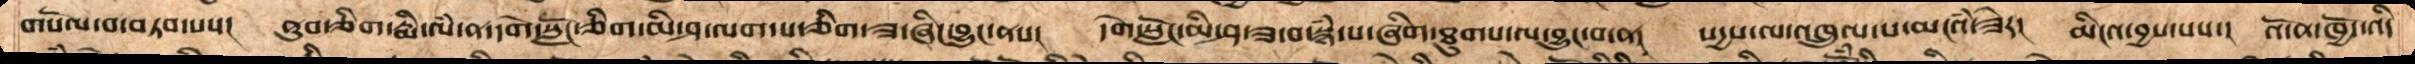གསོལ་བ་བཏབ་པས།   ནུབ་གཅིག་རྨི་ལཾ་ན་དགེ་སློང་ཅིག་མི་ཤ་ལག་པ་གཅིག་ཟ་ཞིང་བྱུང་ནས།  དགེ་སློང་མི་ཤ་ཟ་བ་སྙཾ་པ་ཞིག་ཐུགས་ལ་བྱུང་བ་ན།   སདྱས་ལ་འཁྲུལ་པ་མངའཾ་ཟེར།   མིངའ་བྱས་པས།  འོ་ན་ཁྱོད་འདི
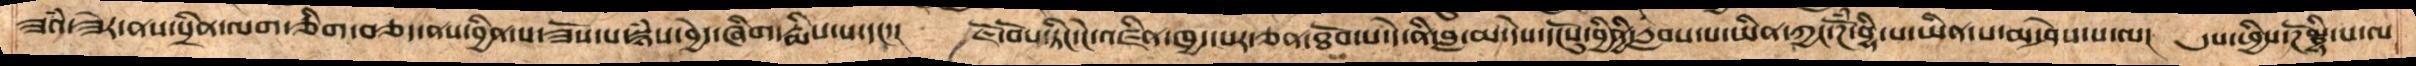ཟའཾ་ཟེར་ནས་སྲིན་ལག་ཅིག་བཅད་ནས་བྱིན་པ་ཟོས་པ་སྙཾས་བྱེད་ཞིག་རྨིས་པ་དང་།   ཇོ་བོས་ཏིང་ངེ་འཛིན་ཁྱད་པར་ཅན་ཐོབ་པ་དེ་ནི་བླ་མ་དེས་དངོསུ་བྱིནྱིརླབས་པ་ཡིན་ཀྱང་ཌོཾ་བྷི་པ་ཡིན་པ་མ་ཤེས་པ་ལ།   དུས་ཕྱིས་ཌོཾ་བྷི་པ་ལ
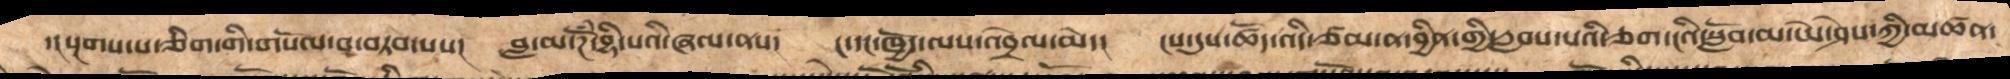དངསྔགས་པ་ཅིག་གི་གསོལ་བ་བཏབ་པས།   བླ་མ་ཌོཾ་བྷི་པའི་ཞལ་ནས།   ང་དང་ཁྱོད་ལས་འབྲེལ་མེད།   ངས་དུས་ཚོད་འདི་ཙམ་ན་བྱིན་གྱི་རླབས་པའི་ཅག་ངའི་སློབ་མ་ཡེ་ཤེས་ཀྱི་མཚན་
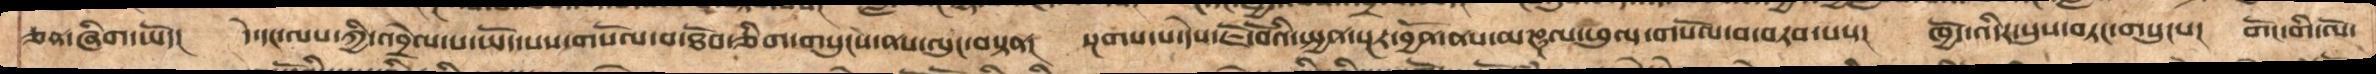ཅན་ཞིག་ཡོད།  དེ་དང་ལས་ཀྱི་འབྲེལ་པ་ཡོད་པས་གསོལ་བ་ཐོབ་ཅིག་གསུངས་ནས་ལུང་བསྟན།  སྔགས་པ་དེས་ཇོ་བོའི་སྤྱན་སྔར་བྱོན་ནས་མཎྜལ་ཕུལ་གསོལ་བ་བཏབ་པས།  ཁྱོད་འདིར་སུས་བཏང་གསུངས།  གོང་གི་ལོ་
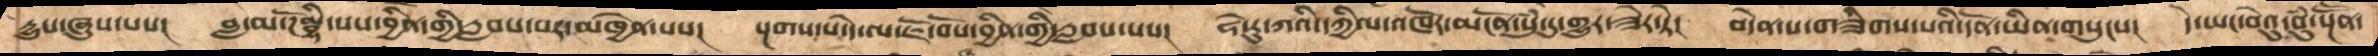དྱུས་ཞུས་པས།    བླ་མ་ཌོམྦྷི་པས་བྱིན་གྱི་རླབས་པར་མཁྱེན་པས།   སྔགས་པ་དེ་ལ་ཇོ་བོས་བྱིན་གྱི་རླབས་པས།   ཧེ་རུ་ཀའི་དཀྱིལ་འཁོར་མངོན་སུཾ་དུ་གྱུར་ཟེར་ཏེ། བདེན་པ་གཟིགས་པའི་དོན་ཡིན་གསུངས།   དེ་ཡང་བེའུ་བུཾ་སྔོཽན་
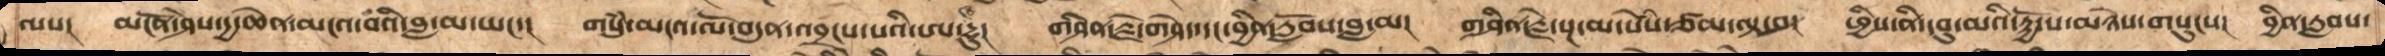ལས། མངོན་ཤེས་རྒྱ་ཆེན་མངའ་བའི་བླ་མ་ཡང་།  གསུཾ་མངའ་ལོ་བདུན་འབྲངས་པའི་ཨ་ཝ་དྷུ།  གཤིན་རྗེ་གཤེད་དང་བྱིན་རློབས་བླ་མ། གཤིན་རྗེ་སྔ་མ་སེཾས་ཙམ་ལྟ་བ།  ཕྱིས་ནི་དབུ་མའི་རྟྱོ་པ་མཉེས་གསུངས། བྱིན་རླབས་
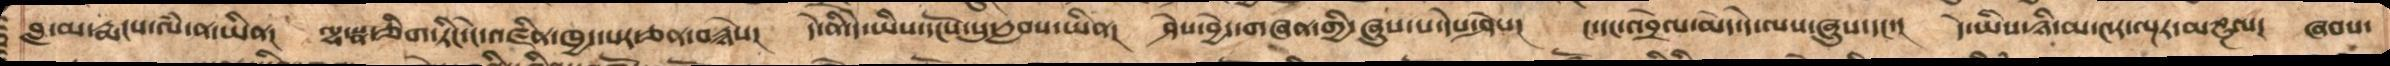བླ་མ་རྨངས་ལཾ་ན་ཡིན།    ལྷ་སྣ་ཅིག་ཏིང་ངེ་འཛིན་ཁྱད་པར་ཅན་བརྙེས།    དེ་ནི་དེ་ཡིས་དངོས་སུ་རླབས་ཡིན།    ཤེས་བྱེད་གཞན་གྱི་ཞུས་པ་དེས་ཤེས།    ང་དང་འབྲེལ་མེད་དེ་ལས་ཞུས་དང་།    དེ་ཡིས་ཉི་མ་༤ར་ལྔར་མཎྜལ།   ཞབས་
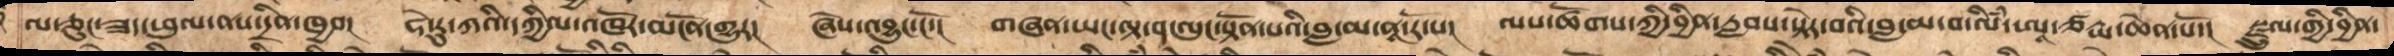ལ་ཅུང་ཟད་ཕུལ་ནས་དྲིན་ཁྱབ།    ཧེ་རུ་ཀའི་དཀྱིལ་འཁོར་མངོན་གྱུར།    ཞེས་འབྱུང་ངོ་།   གཞན་ཡང་ལྟ་བ་ལུང་སྟོན་པའི་བླ་མ་ནཱ་རོ་པ།   ལས་ཚོགས་ཀྱི་བྱིན་རླབས་སྟེར་བའི་བླ་མ་བ་ལིཾ་ཨཱ་ཙརྱ་ཆེན་པོ་།    སྫྲུལ་གྱི་བྱིན་
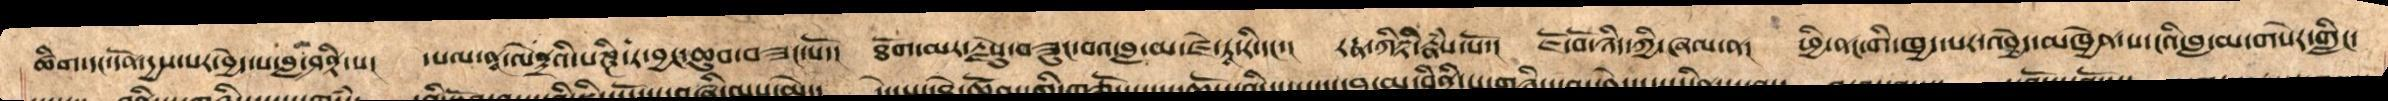ཚིག་དང་དོན་རྒྱས་པར་བྱེད་པའི་བླ་མ་ཤནྟི་པ། དཔལ་ནཱ་ལེནྡྲའི་པཎྜི་ཏ་བྱང་ཆུབ་བཟང་པོ། ཐོག་མར་རྗེས་སུ་བཟུང་བའ་བླ་མ་ཛེ་ཏཱ་རི་དང་། རངྣ་ཀིརྟི་རྣཾས་སོ་།  ཇོ་བོ་ཉིད་ཀྱི་ཞལ་ན། ཕྱི་ནང་གི་ཁྱད་པར་འབྱེད་མཁྱེན་པ་ངའི་བླ་མ་གསེར་གླིང་
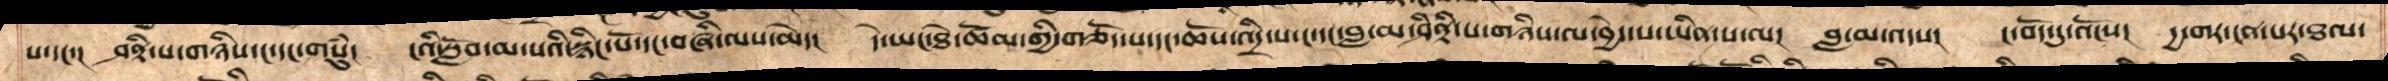པ་དང་།  ཤནྟི་པ་གཉིས་ང་དང་གསུཾ།   ངའི་སློབ་མ་སའི་སྙིང་པོ་དང་བཞི་ལས་མེད།   དེ་ཡང་ཐེ་ཚོམ་གྱི་གཅོད་ས་དང་ཆོས་འདྲི་ས་ང་དང་བླ་མ་ཤནྟི་པ་གཉིས་ལ་བྱེད་པ་ཡིན་པ་ལ།  བླ་མ་འདས།  ང་བོད་དུ་འོངས།  དྱ་གར་ངན་པར་ཐལ་
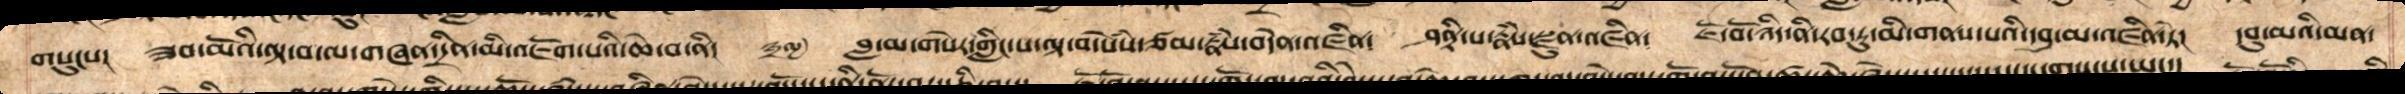གསུངས། ཟབ་མོའི་ལྟ་བ་ལ་གཞན་དྲིན་མི་འཇོག་བའི་ཆེ་བ་ནི། ༣༨ བླ་མ་གསེར་གླིང་པ་ལྟ་བ་སེཾས་ཙམ་རྣཾས་བདེན་འཛིན༴ ཤནྟི་པ་རྣཾས་སྫུན་འཛིན༴ ཇོ་བོ་ཉིད་ནི་རབ་ཏུ་མི་གནས་པའི་དབུ་མ་འཛིན་ཏེ། དབུ་མའི་མན་
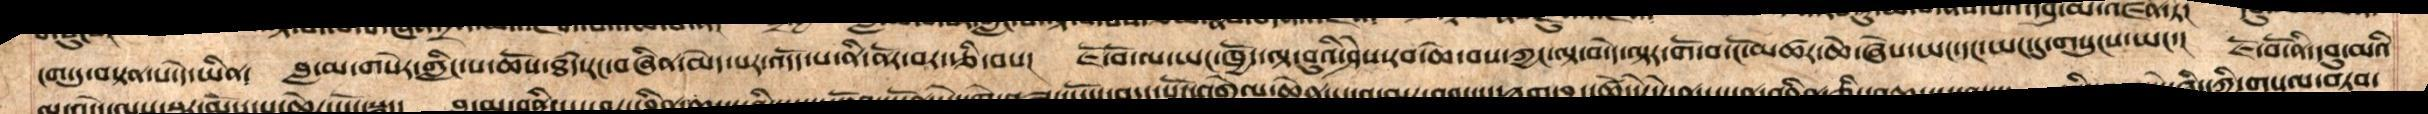ངག་ཏུ་བསྟན་པ་དེ་ཡིན། བླ་མ་གསེར་གླིང་པ་ཆོས་ཐཾད་རང་བཞིན་མེད་པར་འདོད་པ་ནི་ནོར་བར་རྩི་བས། ཇོ་བོ་ལ་ཡང་ཁྱོད་ལྟ་བུའི་ཤེས་རབ་ཆེ་བས་ཀྱང་ལྟ་བ་དེ་ལྟར་གོ་བ་ངོ་མཚར་ཆེ་ཞེས་ཡང་དང་ཡང་དུ་གསུངས་ཡང་། ཇོ་བོ་ནི་དབུ་མའི་
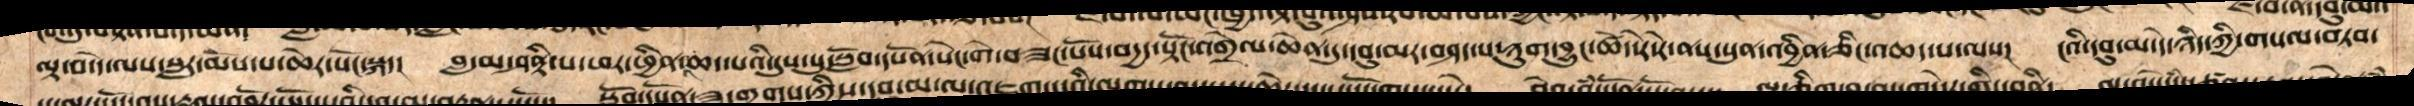ལྟ་བ་དེ་ལས་སླར་མོས་པ་ཆེར་སོང་སྐད། བླ་མ་ཤནྟི་པ་ཕར་ཕྱིན་འཆད་པའི་དུས་སུ་སློབ་དཔོན་སེང་གེ་བཟང་པོས་བདྱད་སྟོང་འགྲེལ་ཆེན་དུ་དབུ་མར་བཤད་པ་ཉུག་བྱུང་ཚེད་རེ་རེ་ནས་སུན་འབྱིན་ཅིང་འཆད་པ་ལས། ངའི་དབུ་མ་དེ་ཉིད་ཀྱིས་གསལ་བཏབ་
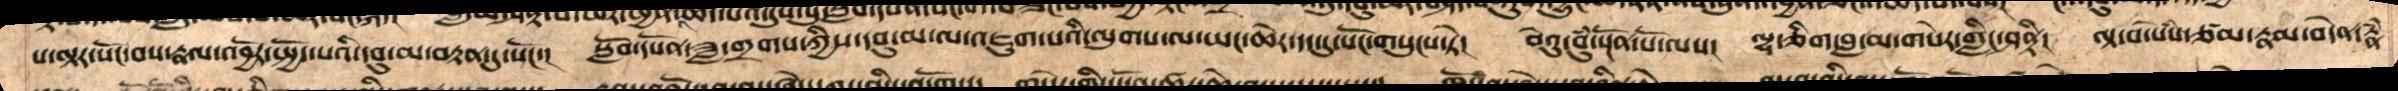པ་ལྟར་སོང་བས་རྣལ་འབྱོར་སྤྱོད་པའི་དབུ་མ་བརྟན་ཏུ་སོང་། སློབ་དཔོན་ཟླ་གྲགས་ཀྱི་དབུ་མ་ལ་འཇུག་པའི་ལུགས་ལ་ཡང་ཆེར་དང་དུ་སོང་གསུངས་ཏེ། བེའུ་བུཾ་སྔོན་པོ་ལས། ལྷ་གཅིག་བླ་མ་གསེར་གླིང་ཤནྟི། ལྟ་བ་སེཾས་ཙམ་རྣམ་བདེན་རྣཾ
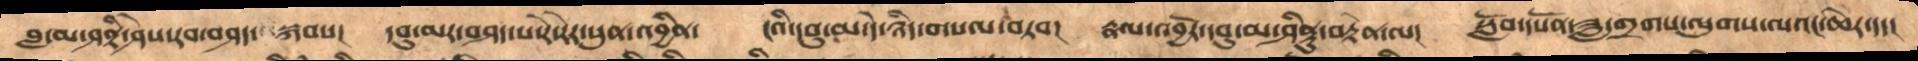བླ་མ་ཤནྟི་ཤེས་རབ་བཤད་སྐབས།   དབུ་མར་བཤད་པ་རེ་རེར་སུན་འབྱིན།   ངའི་དབུ་མ་དེ་ཉིད་གསལ་བཏབ།  རྣལ་འབྱོར་དབུ་མ་ཤིནྟུ་བརྟེན་ལ།  སློབ་དཔོན་ཟླ་གྲགས་ལུགས་ལའང་ཆེར་དད།
